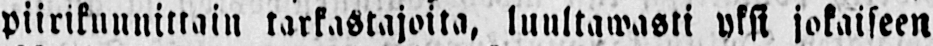piirikunnittain rarkastajoita, luultawasti yksi jokaiseen
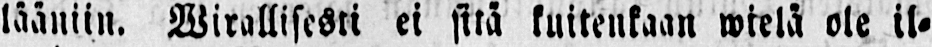lääniin. Wirallisesti ei sitä kuitenkaan wielä ole il-
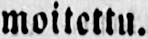moitettu.
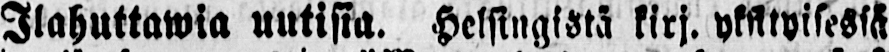Jlahuttawia uutisia. Helsingistä kirj. yksityisessä
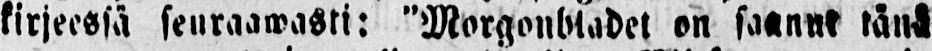kirjeessä seuraawasti: "Morgonbladet on saannt tänä
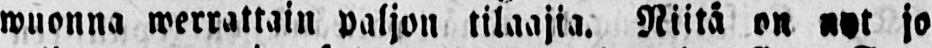wuonna werrattain paljon tilaajia. Niitä on nyt jo
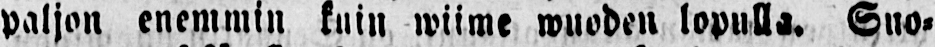paljon enemmin kuin wiime wuoden lopulla. Suo-
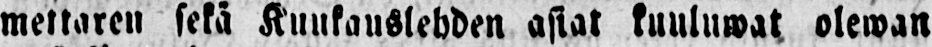mettaren sekä Kuukanslehden asiat kuuluwat olewan
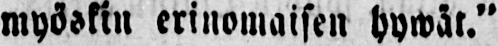myöskin erinomaisen hywät."
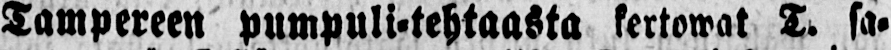Tampereen pumpuli-tehtaasta kertowat T. sa-
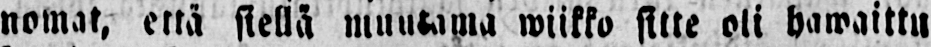nomat, että siellä muu@ma wiikko sitte oli hawaittu
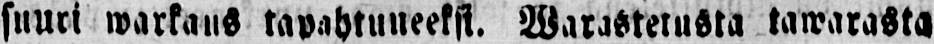suuri warkaus- tapahtuneekst. Warasterusta kawarasta
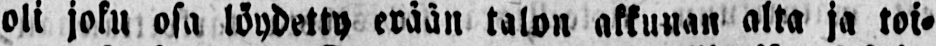oli joku osa löydetty erään talon akkunan alta ja toi-
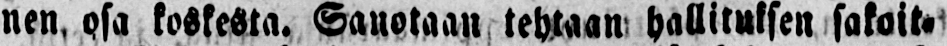nen. osa koskesta. Sauotaan tehtaan hallituksen sakoit-
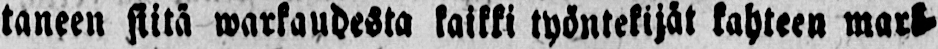taneen siitä warkaudesta kaikki työntekijät kahteen wart-
